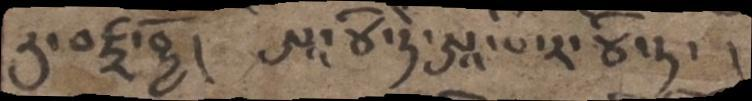ཏུ་བཛྲ་བྷྱོ།   ཨཱ་ཙི་ཏེ་ཨཱ་པ་ར་ཙི་ཏ་ །
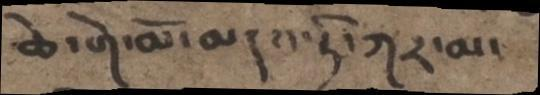ཆེ་གེ་མོ་མདའ་ཏི་ཀར་མ་
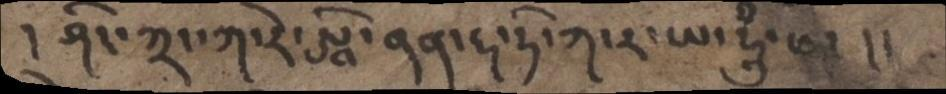། ཤིང་ཀྲང་ཀ་རེ་ཨཱི་ནན་དྷ་ཏི་ཀ་ར་ཡ་ཧཱུྃ་ཕཊ་  །།
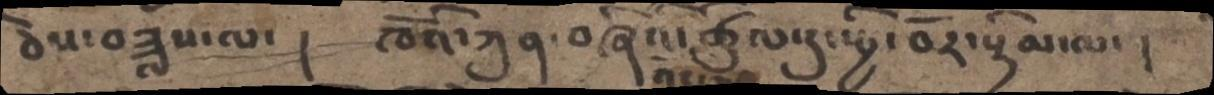ཅེས་བཟློས་ལ་ ། ཁོའི་ཀུན་བཞིའི་ཚུལ་དུ་སྤྱི་བོར་སྟིམ་ལ་ །
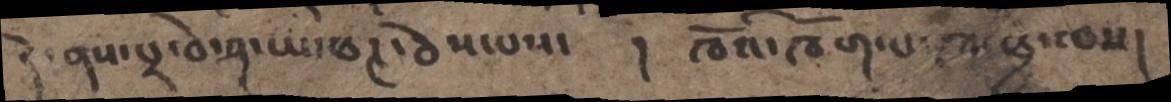དེ་ནས་པྲ་བེ་ཤ་ཡ་ཕཊ་ཅེས་པས་    །  ཁོའི་ཁོག་པ་ཁ་ ཕྱད་བས།
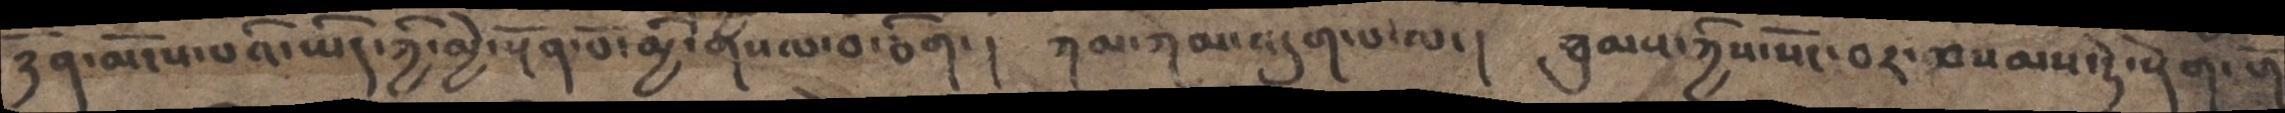ཉོན་མོངས་པའི་ཡིད་ཀྱི་མྱེ་སྔོན་པོ་མྱི་གསལ་བ་ཅིག་། ཀམ་ཀམ་འདུག་པ་ལ་།  ཐུམས་ཀྱིས་སོང་བར་བསམ་ཏེ་རྡེག་པོ་
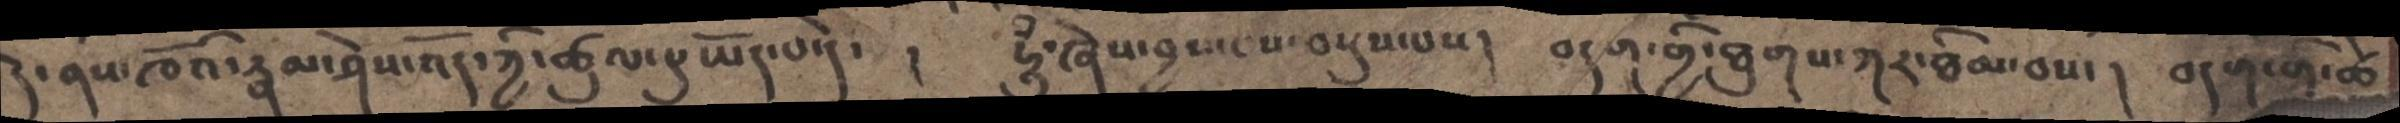དེ་ནས་ཁོའི་རྣམ་ཤེས་འོད་ཀྱི་ཚུལ་དུ་ཡོད་པ་དེ་ ། ཧཱུྃ་ཞེས་བྱས་པས་བསྡུས་པ། བདག་གྱི་ཐུགས་ཀར་ཐིམ་བས་།  བདགགི་ཚེ་
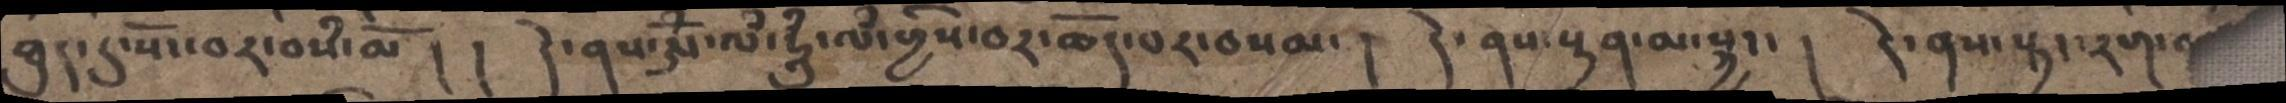ཐུད་དུ་སོང་བར་བསཾ་མོ། །  དེ་ནས་ཨོྃ་ལྃ་ཧཱུྃ་ལྃ་གྱིས་བར་ཆོད་པར་བསམ་ ། དེ་ནས་སྟན་མ་སྐྱང་ །དེ་ནས་སྟད་རག་འ
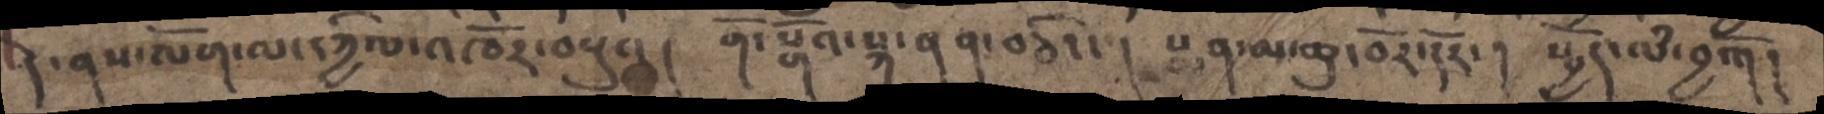དེ་ནས་ལོག་ལ་དཀྱིལ་འཁོར་བསྡུ་། ། གོ་སྒོའ་སྐ་ནན་བཅིང་ ། སྨན་མ་ཆུ་བོར་དོར་ ། སྤྱོད་ལཾ་བྱ་འོ།།
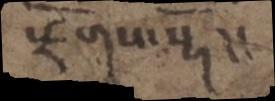རྫོགས་སྷོ །།
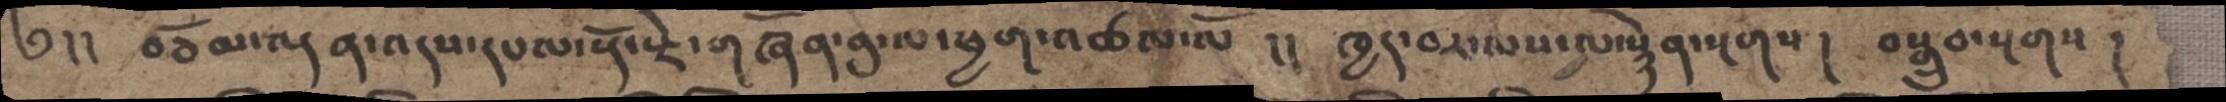༄།། བཅོམ་ལྡན་འདས་དཔལ་རྡོ་རྗེ་གཞོན་ནུ་ལ་ཕྱག་འཚལ་ལོ །། ཁྱད་བར་ལས་ལ་སྙེན་སྔགས ། བསྒྲུབ་སྔགས །
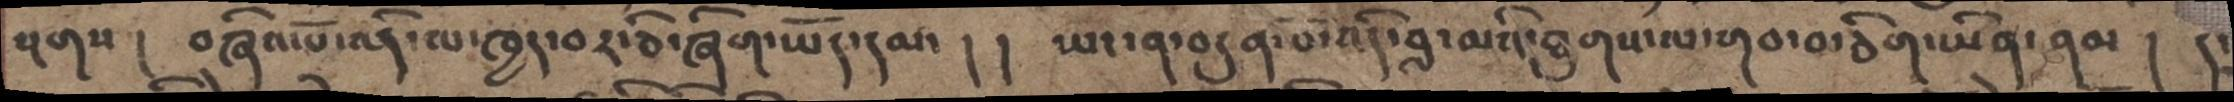སྔགས།  བཞིའ་པོ་འདི་ལ་ཁྱད་བར་ཅི་ཞིག་ཡོད་དམ་ ། ། ཡང་ན་བདུན་པོ་འདི་བླ་མའི་ཐུགས་ལ་གབ་བ་ཅིག་ཡིན་ནམ ། །
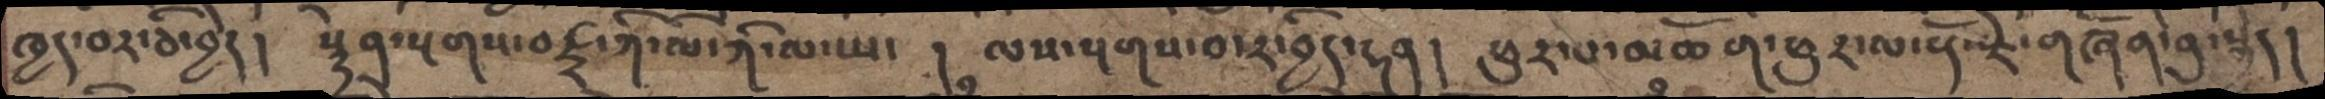ཁྱད་བར་ཅི་བྱེད།  སྙེན་སྔགས་བཛྲ་ཀི་ལི་ཀི་ལི་ཡ་ ། ལས་སྔགས་བ་ར་བྱིད་ཧན། ཕུར་པ་མཆོག་ཕུར་ལ་རྡོ་རྗེ་གཞོན་ནུ་སྐྱེ།།
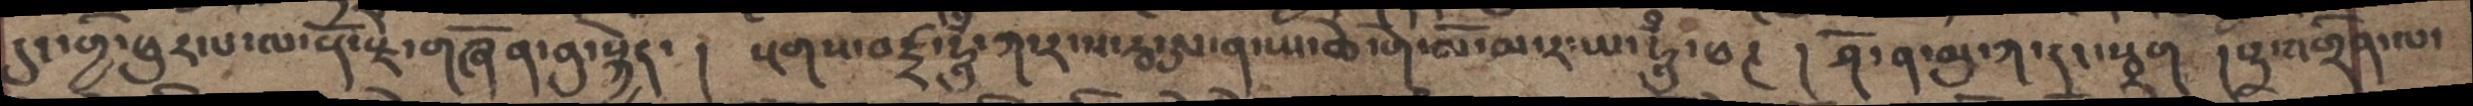དུང་གྱི་ཕུར་པ་ལ་རྡོ་རྗེ་གཞོན་ནུ་སྐྱེད་ ། སྔགས་བཛྲ་ཧཱུྃ་ཀ་ར་ས་རྦ་ཨ་ན་ཡ་ཆེ་གེ་མོ་མ་ར་ཡ་ཧཱུཾ་ཕཊ ། ཤོ་ན་མུ་ཀ་དང་སྦྲག ། རྟ་འགྲིན་ལ་
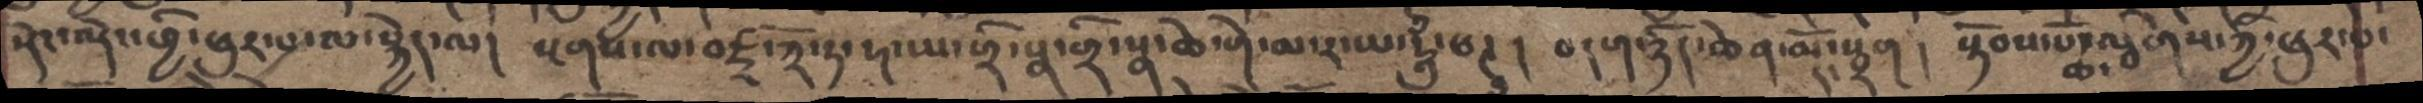སྡེང་ལྡེང་ཕྱི་ཕུར་པ་ལ་སྐྱེད་ལ། སྔགས་ལ་བཛྲ་ཀྲོ་ཏ་ཧ་ཡ་གྲི་སྣ་གྲི་སྣ་ཆེ་གེ་མ་ར་ཡ་ཧཱུྃ་ཕཊ ། བདག་ཉིད་ཆེན་མོ་དང་སྦྲག ། སྟོབས་པོ་ཆེ་ལྕགས་ཀྱི་ཕུར་པ་
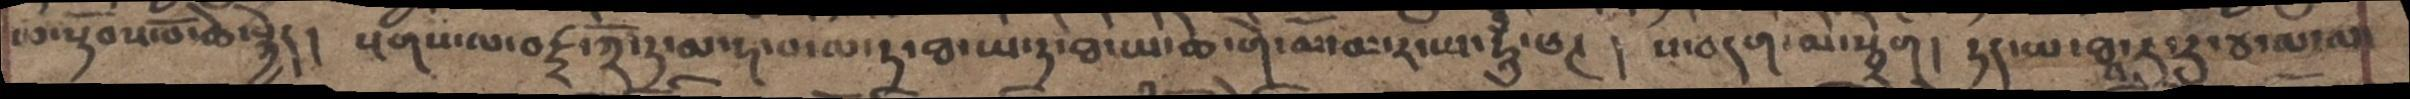ལ་སྟོབས་པོ་ཆེ་སྐྱེད། སྔགས་ལ་བཛྲ་ཀྲོ་ཏ་མ་ཧ་བ་ལ་ཏ་ཐ་ཡ་ཏ་ཐ་ཡ་ཆེ་གེ་མོ་མ་ར་ཡ་ཧཱུྃ་ཕཊ ། ས་བདག་མེ་སྦྲེག། ཏད་ཡ་ཐཱ་ར་རུ་ཙ་མ་ལ་
